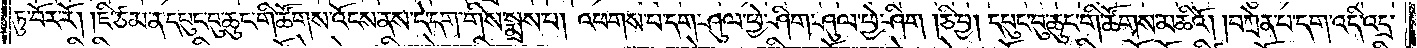ཏུ་བོར་རོ། །ཇི་ཙམ་ན་དཔུང་བུ་ཆུང་གི་ཚོགས་འོངས་ནས་དེ་དག་གིས་སྨྲས་པ། འཕགས་པ་དག་ཤུལ་ཕྱེ་ཤིག་ཤུལ་ཕྱེ་ཤིག །ཅི་བྱ། དཔུང་བུ་ཆུང་གི་ཚོགས་མཆིའོ། །བཀྲེན་པ་དག་འདི་འདྲ་
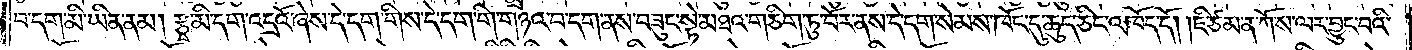བ་དག་མི་ཡིན་ནམ། རྩྭ་མི་དག་འདྲའོ་ཞེས་དེ་དག་གིས་དེ་དག་གི་གཉའ་བ་དག་ནས་བཟུང་སྟེ་མཐའ་གཅིག་ཏུ་བོར་ནས་དེ་དག་སེམས་ཁོང་དུ་ཆུད་ཅིང་འཁོད་དོ། །ཇི་ཙམ་ན་ཀོ་ས་ལར་བྱུང་བའི་
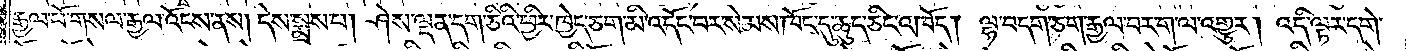རྒྱལ་པོ་གསལ་རྒྱལ་འོངས་ནས། དེས་སྨྲས་པ། ཤེས་ལྡན་དག་ཅིའི་ཕྱིར་ཁྱེད་ཅག་མི་འདོང་བར་སེམས་ཁོང་དུ་ཆུད་ཅིང་འཁོད། ལྷ་བདག་ཅག་རྒྱལ་བར་ག་ལ་འགྱུར། འདི་ལྟར་དགེ་
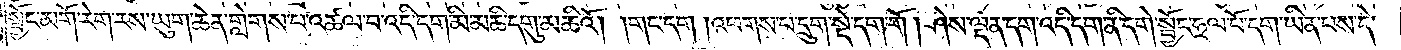སྦྱོང་མགོ་རེག་རས་ཡུག་ཆེན་གླེགས་པ་འཚལ་བ་འདི་དག་མི་མཆི་དགུ་མཆིའོ། །གང་དག །འཕགས་པ་དྲུག་སྡེ་དག་གོ །ཤེས་ལྡན་དག་འདི་དག་ནི་དགེ་སྦྱོང་ཧྲལ་པོ་དག་ཡིན་པས་དེ་
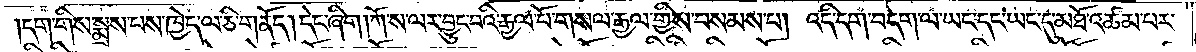དག་གིས་སྨྲས་པས་ཁྱེད་ལ་ཅི་གནོད། དེང་ཞིག །ཀོ་ས་ལར་བྱུང་བའི་རྒྱལ་པོ་གསལ་རྒྱལ་གྱིས་བསམས་པ། འདི་དག་བདག་ལ་ཡང་དང་ཡང་དུ་མཐོ་འཚམ་པར་
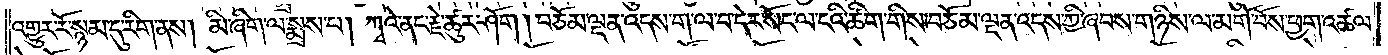འགྱུར་རོ་སྙམ་དུ་རིག་ནས། མི་ཞིག་ལ་སྨྲས་པ། ཀྭའེ་ནང་རྗེ་ཚུར་ཤོག །བཅོམ་ལྡན་འདས་ག་ལ་བ་དེར་སོང་ལ་ངའི་ཚིག་གིས་བཅོམ་ལྡན་འདས་ཀྱི་ཞབས་གཉིས་ལ་མགོ་བོས་ཕྱག་འཚལ་
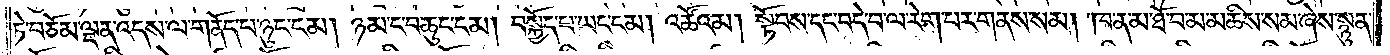ཏེ་བཅོམ་ལྡན་འདས་ལ་གནོད་པ་ཉུང་ངམ། ཉམ་ང་བ་ཆུང་ངམ། བསྐྱོད་པ་ཡང་ངམ། འཚོའམ། སྟོབས་དང་བདེ་བ་ལ་རེག་པར་གནས་སམ། ཁ་ན་མ་ཐོ་བ་མ་མཆིས་སམ་ཞེས་སྙུན་
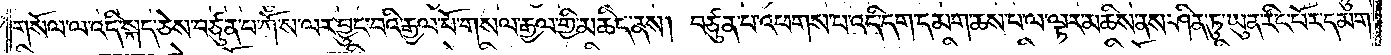གསོལ་ལ་འདི་སྐད་ཅེས་བཙུན་པ་ཀོ་ས་ལར་བྱུང་བའི་རྒྱལ་པོ་གསལ་རྒྱལ་གྱི་མཆིད་ནས། བཙུན་པ་འཕགས་པ་འདི་དག་དམག་ཆས་པ་ལ་ལྟར་མཆིས་ནས་ཤིན་ཏུ་ཡུན་རིང་པོར་དམག་
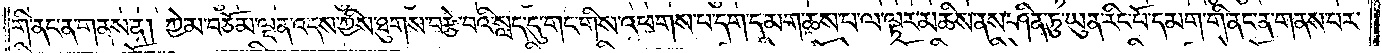གི་ནང་ན་གནས་ན། ཀྱེ་མ་བཅོམ་ལྡན་འདས་ཀྱིས་ཐུགས་བརྩེ་བའི་སླད་དུ་གང་གིས་འཕགས་པ་དག་དམག་ཆས་པ་ལ་ལྟར་མཆིས་ནས་ཤིན་ཏུ་ཡུན་རིང་པོ་དམག་གི་ནང་ན་གནས་པར་
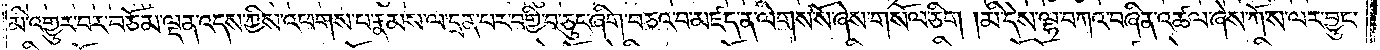མི་འགྱུར་བར་བཅོམ་ལྡན་འདས་ཀྱིས་འཕགས་པ་རྣམས་ལ་དྲན་པར་བགྱི་བ་ཅུང་ཞིག་བཅའ་བ་མཛད་ན་ལེགས་སོ་ཞེས་གསོལ་ཅིག །མི་དེས་ལྷ་བཀའ་བཞིན་འཚལ་ཞེས་ཀོ་ས་ལར་བྱུང་
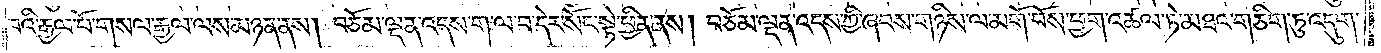བའི་རྒྱལ་པོ་གསལ་རྒྱལ་ལས་མཉན་ནས། བཅོམ་ལྡན་འདས་ག་ལ་བ་དེར་སོང་སྟེ་ཕྱིན་ནས། བཅོམ་ལྡན་འདས་ཀྱི་ཞབས་གཉིས་ལ་མགོ་བོས་ཕྱག་འཚལ་ཏེ་མཐའ་གཅིག་ཏུ་འདུག་
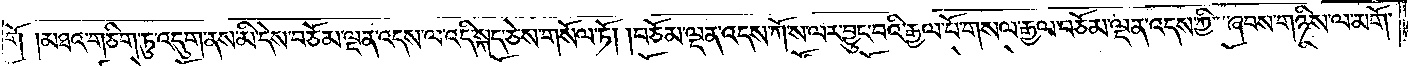གོ །མཐའ་གཅིག་ཏུ་འདུག་ནས་མི་དེས་བཅོམ་ལྡན་འདས་ལ་འདི་སྐད་ཅེས་གསོལ་ཏོ། །བཅོམ་ལྡན་འདས་ཀོ་ས་ལར་བྱུང་བའི་རྒྱལ་པོ་གསལ་རྒྱལ་བཅོམ་ལྡན་འདས་ཀྱི་ཞབས་གཉིས་ལ་མགོ་
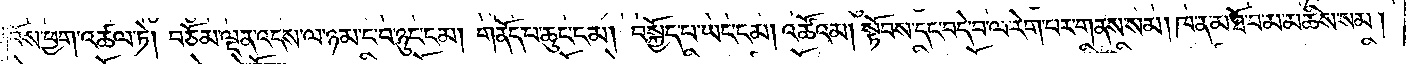བོས་ཕྱག་འཚལ་ཏེ། བཅོམ་ལྡན་འདས་ལ་ཉམ་ང་བ་ཉུང་ངམ། གནོད་པ་ཆུང་ངམ། བསྐྱོད་པ་ཡང་ངམ། འཚོའམ། སྟོབས་དང་བདེ་བ་ལ་རེག་པར་གནས་སམ། ཁ་ན་མ་ཐོ་བ་མ་མཆིས་སམ།
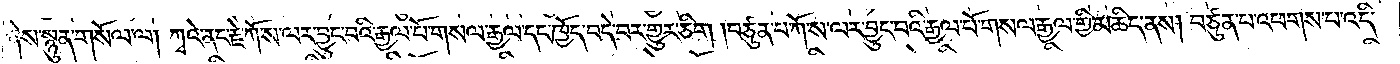ཞེས་སྙུན་གསོལ་ལ། ཀྭའེ་ནང་རྗེ་ཀོ་ས་ལར་བྱུང་བའི་རྒྱལ་པོ་གསལ་རྒྱལ་དང་ཁྱོད་བདེ་བར་གྱུར་ཅིག །བཙུན་པ་ཀོ་ས་ལར་བྱུང་བའི་རྒྱལ་པོ་གསལ་རྒྱལ་གྱི་མཆིད་ནས། བཙུན་པ་འཕགས་པ་འདི་
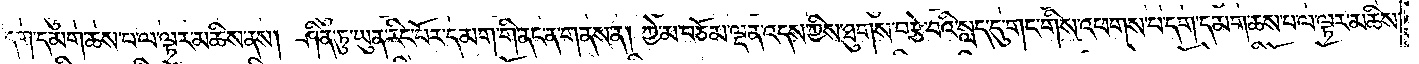དག་དམག་ཆས་པ་ལ་ལྟར་མཆིས་ནས། ཤིན་ཏུ་ཡུན་རིང་པོར་དམག་གི་ནང་ན་གནས་ན། ཀྱེ་མ་བཅོམ་ལྡན་འདས་ཀྱིས་ཐུགས་བརྩེ་བའི་སླད་དུ་གང་གིས་འཕགས་པ་དག་དམག་ཆས་པ་ལ་ལྟར་མཆིས་
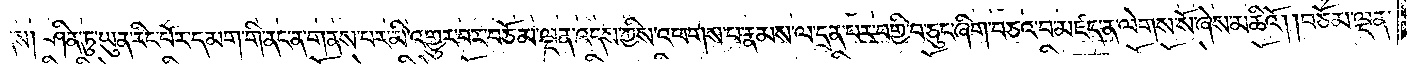ནས། ཤིན་ཏུ་ཡུན་རིང་པོར་དམག་གི་ནང་ན་གནས་པར་མི་འགྱུར་བར་བཅོམ་ལྡན་འདས་ཀྱིས་འཕགས་པ་རྣམས་ལ་དྲན་པར་བགྱི་བ་ཅུང་ཞིག་བཅའ་བ་མཛད་ན་ལེགས་སོ་ཞེས་མཆིའོ། །བཅོམ་ལྡན་
